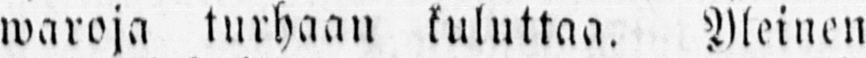waroja turhaan kuluttaa. Yleinen
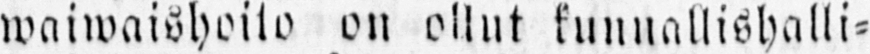waiwaishoito on ollut kunnallishalli-
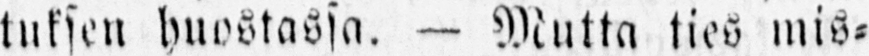tuksen huostassa. — Mutta ties mis-
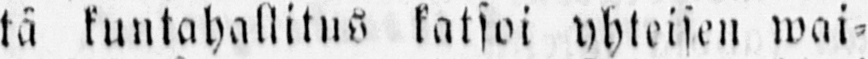tä kuntahallitus katsoi yhteisen wai-
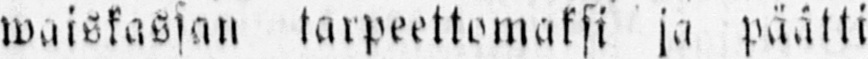waiskassan tarpeettomaksi ja päätti
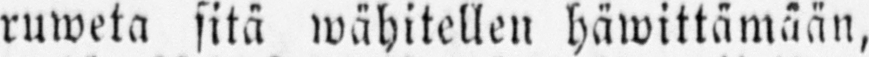ruweta sitä wähitellen häwittämään,
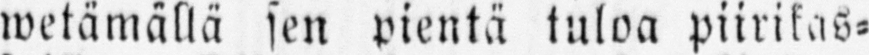wetämällä sen pientä tuloa piirikas-
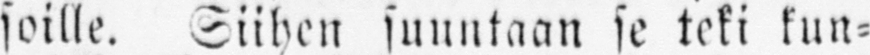soille. Siihen suuntaan se teki kun-
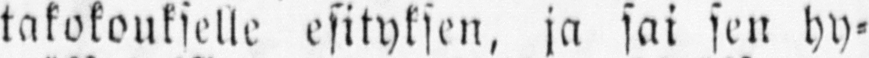takokoukselle esityksen, ja sai sen hy-
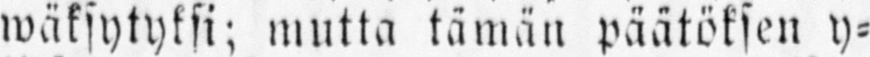wäksytyksi; mutta tämän päätöksen y-
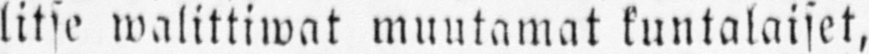litse walittiwat muutamat kuntalaiset,
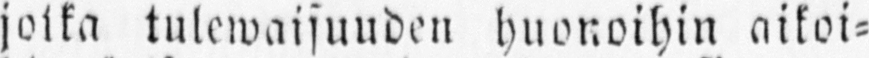jotka tulewaisuuden huonoihin aikoi-
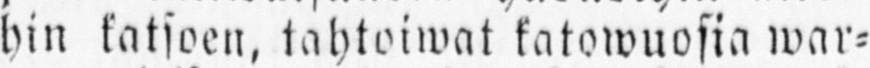hin katsoen, tahtoiwat katowuosia war-
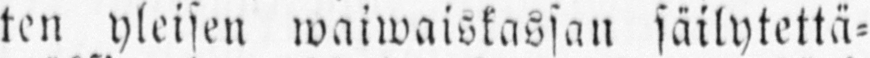ten yleisen waiwaiskassan säilytettä-
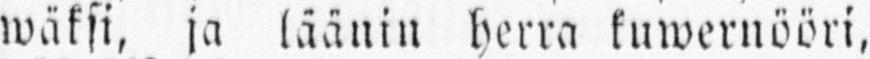wäksi, ja läänin herra kuwernööri,
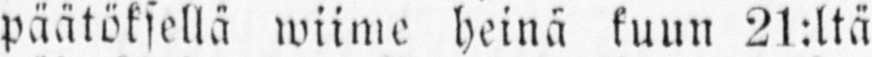päätöksellä wiime heinä kuun 21:ltä
